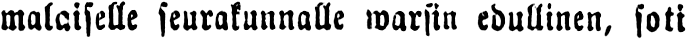malaiselle seurakunnalle warsin edullinen, soti
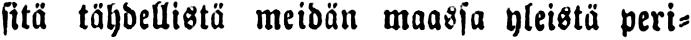sitä tähdellistä meidän maassa yleistä peri-
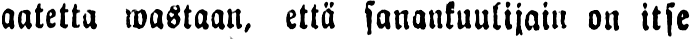aatetta wastaan, että sanankuulijoin on itse
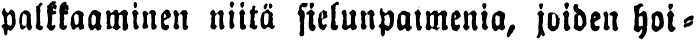palkkaaminen niitä sielunpaimenia, joiden hoi-
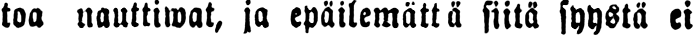toa nauttiwat, ja epäilemättä siitä syystä ei
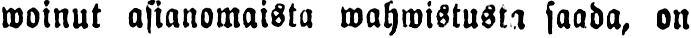woinut asianomaista wahwistusra saada, on
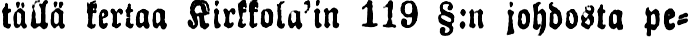tällä kertaa Kirkkola'in 119 §:n johdosta pe-
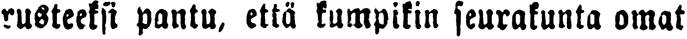rusteeksi pantu, että kumpikin seurakunta omat
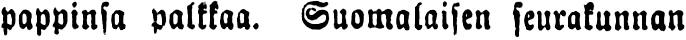pappinsa palkkaa. Suomalaisen seurakunnan
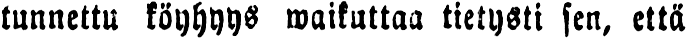tunnettu köyhyys waikuttaa tietysti sen, että
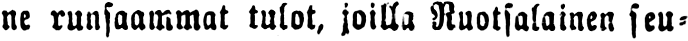ne runsaammat tulot, joilla Ruotsalainen seu-
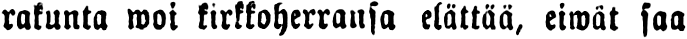rakunta woi kirkkoherransa elättää, eiwät saa
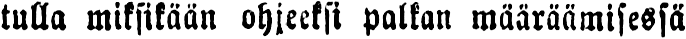tulla miksikään ohjeeksi palkan määräämisessä
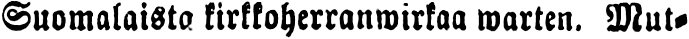Suomalaista kirkkoherranwirkaa warten. Mut-
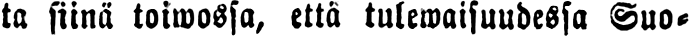ta siinä toiwossa, että tulewaisuudessa Suo-
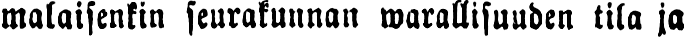malaisenkin seurakunnan warallisuuden tila ja
